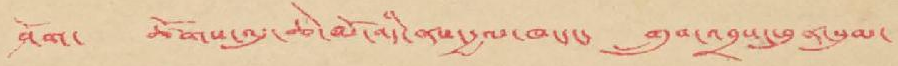ཤོག་ ཚོགས་འདུ་ཆེ་མོ་འདི་ནས་རྒྱལ་ཁ་དང་ གྲུབ་འབྲས་ཕུན་སུམ་
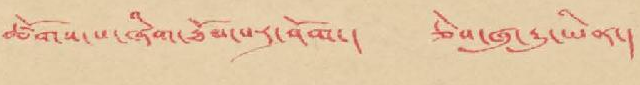ཚོགས་པ་ཞིག་ཐོབ་པར་ཤོག་། ཅེས་ཞུ་རྒྱུ་ཡིན་།
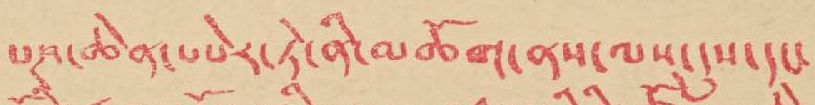པཎ་ཆེན་ཨེར་ཏེ་ནི་མཆོག་ནས་ལས་དུས་དང་
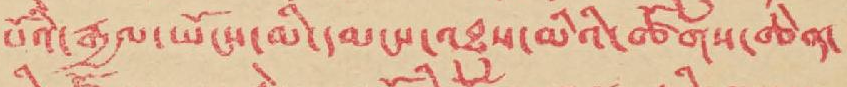པོའི་རྒྱལ་ཡོངས་མི་དམངས་འཐུས་མིའི་ཚོགས་ཆེན་
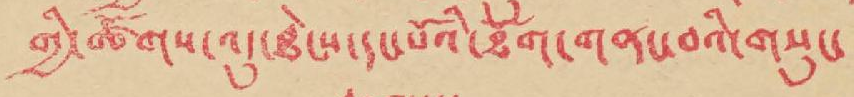གྱི་ཚོགས་འདུ་ཐེངས་དང་པོའི་ཐོག་གནང་བའི་གསུང་
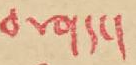བཤད་།
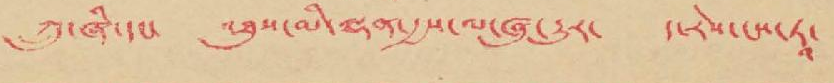ཀྲུ་ཞི་དང་ འཐུས་མི་ལྷན་རྒྱས་ལ་ཞུ་རྒྱུར་ ད་རེས་ངས་ཏཱ་
